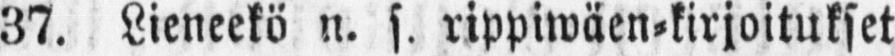37. Lieneekö n. s. rippiwäen-kirjoitukset
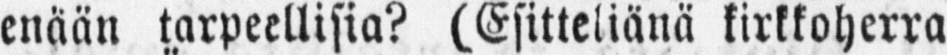ennän tarpeellisia? (Esitteliänä kirkkoherra
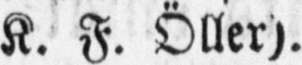K. F. Öller).
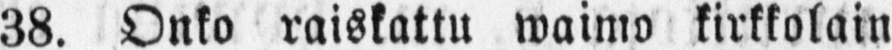38. Onko raiskattu waimo kirkkolain
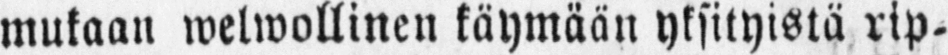mukaan welwollinen käymään yksityistä rip-
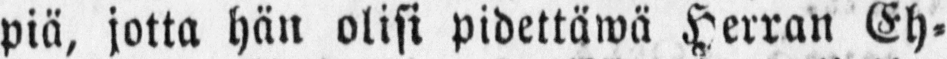piä, jotta hän olisi pidettäwä Herran Eh-
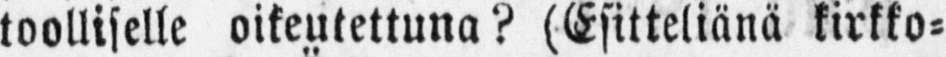toolliselle oikeutettuna? (Esitteliänä kirkko-
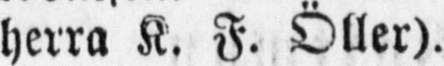herra K. F. Öller).
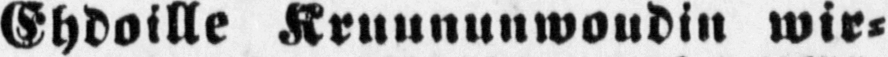Ehdoille Kruununwoudin wir-
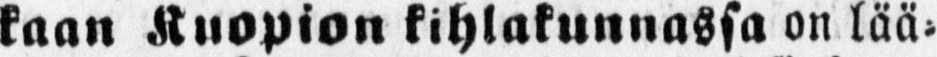kaan Kuopion kihlakunnassa on lää-
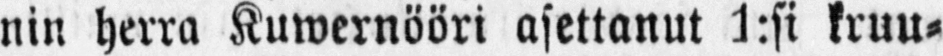nin herra Kuwernööri asettanut 1:si kruu-
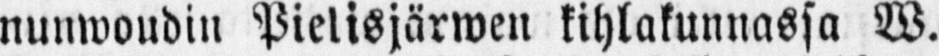nunwoudin Pielisjärwen kihlakunnassa W.
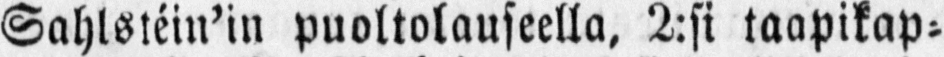Sahlstéin’in puoltolauseella. 2:si taapikap-
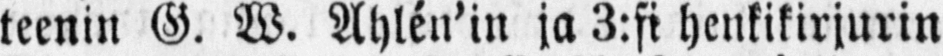teenin G. W. Ahlén’in ja 3:si henkikirjurin
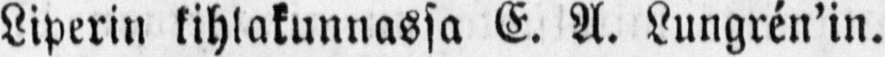Liperin kihlakunnassa E. A. Lungrén’in.
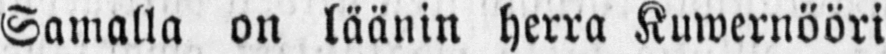Samalla on läänin herra Kuwernööri
